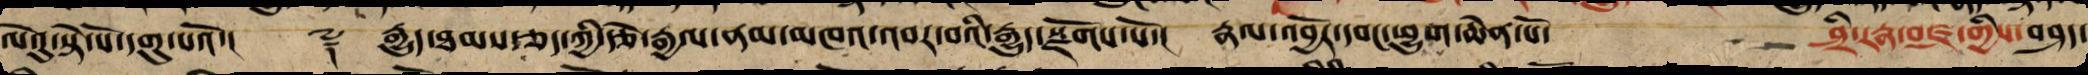ལེའུ་སྟེ་སོ་དགུ་པའོ་།། ༈ །རྒྱུད་ཐམས་ཅད་ཀྱི་རྩེ་རྒྱལ་ནམ་མཁའ་འབར་བའི་རྒྱུད་སྫོགས་སོ་། རྣལ་འབྱོར་དབང་ཕྱུག་ཆེན་པོ་    ཤྲཱི་རཏྣ་བཛྲ་གྱིས་བཤད་
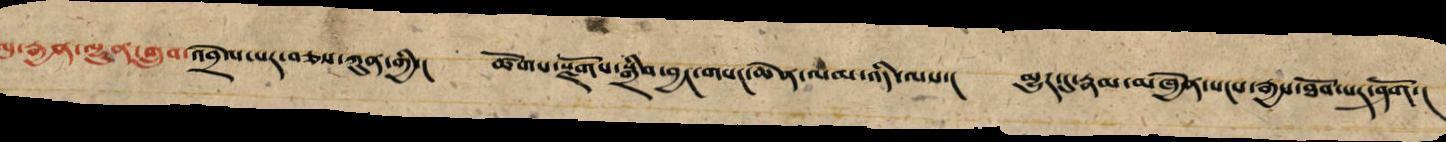སུ་ཨུ་རྒྱན་ལྷུན་གྲུབ་འབྲེལ་པར་བཅས་ཀུན་གྱི་། ཚོགས་སྫོགས་སྒྲིབ་བྱང་གསང་ཆེན་ལམ་འདི་ལས་། མྱུར་དུ་རྣམ་མཁྱེན་སངས་རྒྱས་ཐོབ་པར་ཤོག་།
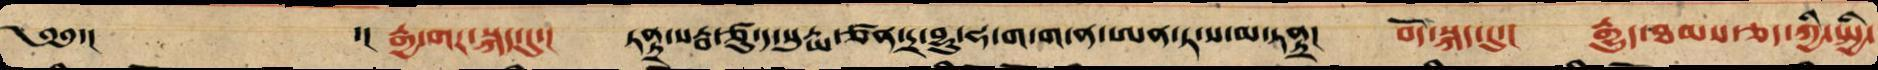༄༅་། ་། རྒྱ་གར་སྐད་དུ་། ཏནྟྲ་སརྦ་ཙུ་ཌ་སུརྱ་ཙན་ཏྲ་བྷུ་ཧ་ག་ག་ན་ཨན་ཏ་ས་མ་ཏནྟྲ། བོད་སྐད་དུ་། རྒྱུད་ཐམས་ཅད་ཀྱི་སྤྱི་
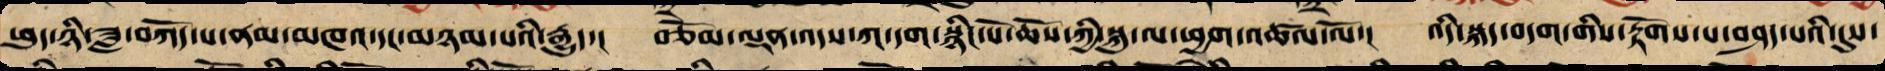ཕུད་ཉི་ཟླ་བཀོད་པ་ནམ་མཁའི་མཐའ་དང་མཉམ་པའི་རྒྱུད་། བཅོམ་ལྡན་འདས་ཀ་དག་སྙིང་པོ་ཆོས་ཀྱི་སྐུ་ལ་ཕྱག་འཚལ་ལོ་། འདི་སྐད་བདག་གིས་རྟོགས་པ་བཤད་པའི་དུས་
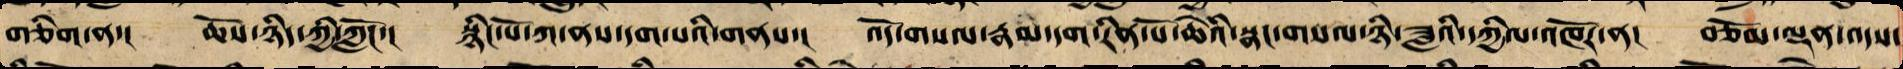གཅིག་ན་། ཆོས་ཉིད་ཀྱི་ཀློང་། སྙིང་པོ་ཀ་ནས་དག་པའི་གནས་། འོད་གསལ་རྣམ་དག་རིན་པོ་ཆེ་སྣང་གསལ་ཉི་ཟླའི་དཀྱིལ་འཁོར་ན་། བཅོམ་ལྡན་འདས་
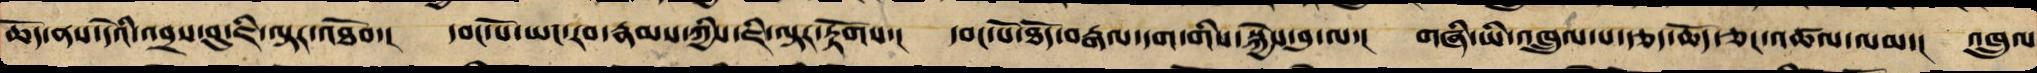ཆོད་ནས་དེའི་འབྲས་བུ་ཇི་ལྟར་འཐོབ་། དབང་པོ་ཡང་རབ་རྣམས་ཀྱིས་ཇི་ལྟར་རྟོགས་། དབང་པོ་ཐོད་བརྒལ་དག་གི་སྐྱེས་བུ་ལ་། གཞི་ཡི་འཁྲུལ་པ་རྩད་ཆོད་ཅང་འཚལ་ལམ་། འཁྲུལ
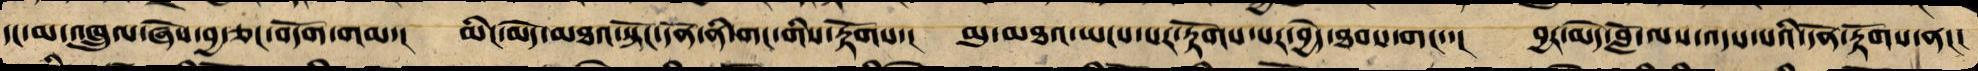དང་མ་འཁྲུལ་ཞེས་བྱ་ཅང་བདོག་གམ་། མིང་མེད་མཐའ་སྟོང་དོན་ནི་གང་གིས་རྟོགས་། མུ་མཐའ་ཡངས་པར་རྟོགས་པར་བྱེད་ཐབས་གང་་། བྱར་མེད་བློ་ལས་འདས་པའི་དོན་རྟོགས་ན།།།
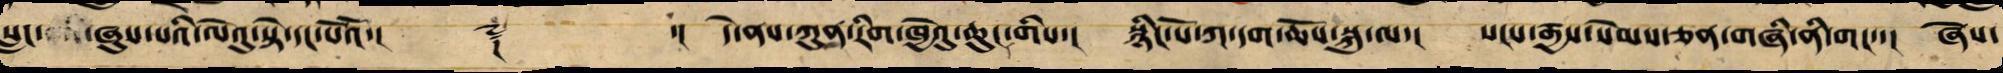སླང་ཞུས་པའི་ལེའུ་སྟེ་དང་པོའོ་། ༈ ་།། དེ་ནས་ཀུན་རིག་གསལ་བའི་ཁྱེའུ་ཆུང་གིས་། སྙིང་པོ་ཀ་དག་ཆོས་སྐུ་ལ་། སངས་རྒྱས་སེམས་ཅན་གཞི་ནི་གང་་། ཞེས་
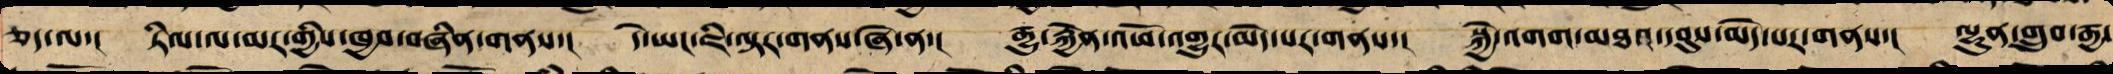ཅད་ལ་། ཏིལ་ལ་མར་གྱིས་ཁྱབ་བཞིན་གནས་། དེ་ཡང་ཇི་ལྟར་གནས་ཞེ་ན་། རྒྱུ་རྐྱེན་འཕོ་འགྱུར་མེད་པར་གནས་། སྐྱེ་འགག་མཐའ་དབུས་མེད་པར་གནས་། ལྷུན་གྲུབ་རྒྱ་
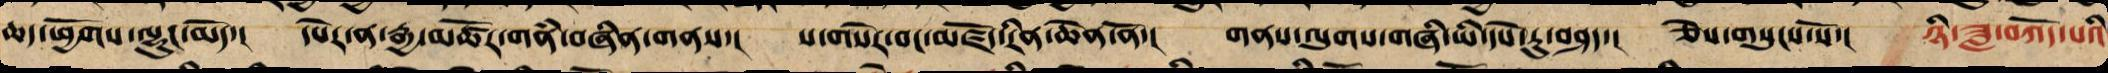ཆད་ཕྱོགས་ལྷུང་མེད་། དཔེར་ན་རྒྱ་མཚོར་གནཾ་བཞིན་གནས་། ས་གསེར་བང་མཛོད་རིན་ཆེན་ནོ་། གནས་ལུགས་བཞི་ཡི་དཔེ་རུ་བཤད་། ཅེས་གསུངས་སོ་། ཉི་ཟླ་བཀོད་པའི་
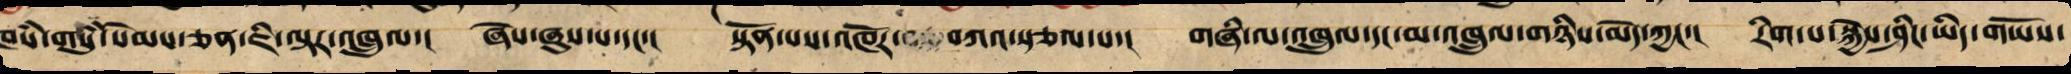ཁཾས་གསུཾ་སེམས་ཅན་ཇི་ལྟར་འཁྲུལ་། ཞེས་ཞུས་པ་དང་་། སྟོན་པས་འཁོར་ལ་བཀའ་སྩལ་པ་། གཞི་ལ་འཁྲུལ་དང་མ་འཁྲུལ་གཉིས་མེད་ཀྱང་། རིག་པ་སྐྱེས་ཤིང་ཡིད་གཡོས་
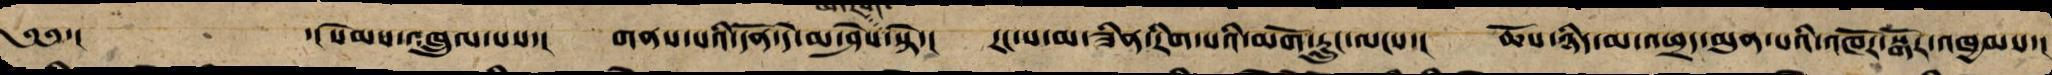༄༅་། ་།སེམས་འཁྲུལ་པས་། གནས་པའི་དོན་དེ་མ་ཤེས་མ་རིག་ཏེ་། རང་ས་མ་ཟིན་རིག་པའི་མགོ་རླུང་ལངས་། ཆོས་ཉིད་མ་འཕྲད་མུན་པའི་འཁོར་སྒོར་འཁྱམས་།
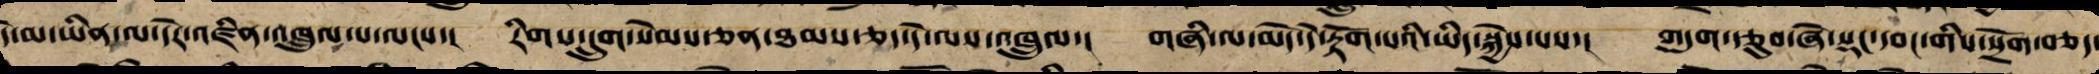དེ་མ་ཡིན་ལ་དེར་འཛིན་འཁྲུལ་པ་ལངས་། རིགས་དྲུག་སེམས་ཅན་ཐམས་ཅད་དེ་ལས་འཁྲུལ་། གཞི་ལ་མེད་དེ་རྟོག་པའི་ཡིད་སྐྱེས་པས་། གདུག་རྩུབ་ཞེ་སྡང་དབང་གིས་སྲོག་བཅད་
